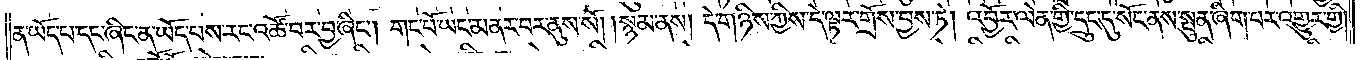ན་ཡོད་པ་དང་ཞིང་ན་ཡོད་པས་རང་འཚོ་བར་བྱ་ཞིང༌། གང་པོ་ཡང་མནར་བར་ནུས་སོ། །སྙམ་ནས། དེ་གཉིས་ཀྱིས་དེ་ལྟར་གྲོས་བྱས་ཏེ། འབྱོར་ལེན་གྱི་དྲུང་དུ་སོང་ནས་སྤུན་ཞིག་པར་འགྱུར་གྱི།
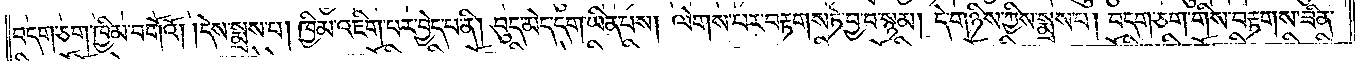བདག་ཅག་ཁྱིམ་བགོའོ། །དེས་སྨྲས་པ། ཁྱིམ་འཇིག་པར་བྱེད་པ་ནི། བུད་མེད་དག་ཡིན་པས། ལེགས་པར་བརྟགས་ཏེ་བྱ་བ་སྙམ། དེ་གཉིས་ཀྱིས་སྨྲས་པ། བདག་ཅག་གིས་བརྟགས་ཟིན་
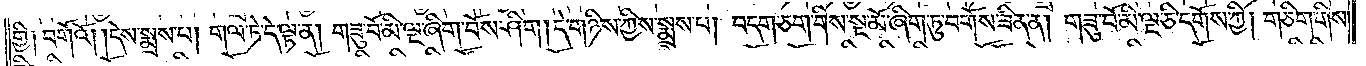གྱི༑ བགོའོ། །དེས་སྨྲས་པ། གལ་ཏེ་དེ་ལྟ་ན། གཟུ་བོ་མི་ལྔ་ཞིག་བོས་ཤིག །དེ་གཉིས་ཀྱིས་སྨྲས་པ། བདག་ཅག་གིས་སྔ་མོ་ཞིག་ཏུ་བགོས་ཟིན་ན། གཟུ་བོ་མི་ལྔ་ཅི་དགོས་ཀྱི། གཅིག་གིས་
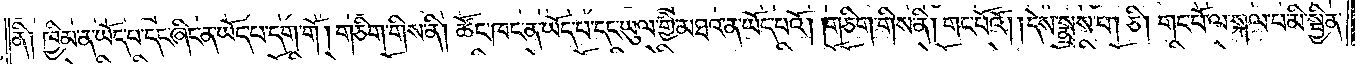ནི༑ ཁྱིམ་ན་ཡོད་པ་དང་ཞིང་ན་ཡོད་པ་དག་གོ །གཅིག་གིས་ནི། ཚོང་ཁང་ན་ཡོད་པ་དང་ཡུལ་གྱི་མཐའ་ན་ཡོད་པའོ། །གཅིག་གིས་ནི། གང་པོའོ། །དེས་སྨྲས་པ། ཅི། གང་པོ་ལ་སྐལ་པ་མི་སྦྱིན་
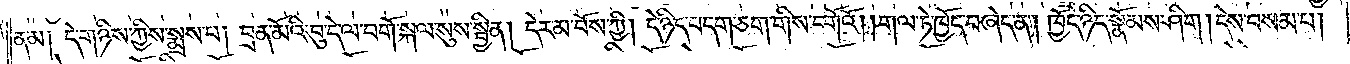ན་མ། དེ་གཉིས་ཀྱིས་སྨྲས་པ། བྲན་མོའི་བུ་དེ་ལ་བགོ་སྐལ་སུས་སྦྱིན། དེར་མ་བོས་ཀྱི། དེ་ཉིད་བདག་ཅག་གིས་བགོའོ། །གལ་ཏེ་ཁྱོད་བཞེད་ན། ཁྱོད་ཉིད་སྙོམས་ཤིག །དེས་བསམ་པ།
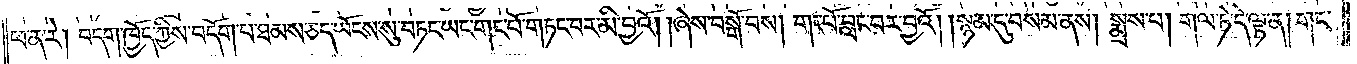ཕ་ན་རེ། བདག་ཁྱོད་ཀྱིས་བདོག་པ་ཐམས་ཅད་ཡོངས་སུ་བཏང་ཡང་གང་པོ་གཏང་བར་མི་བྱའོ། །ཞེས་བསྒོ་བས། གང་པོ་བླང་བར་བྱའོ། །སྙམ་དུ་བསམ་ནས། སྨྲས་པ། གལ་ཏེ་དེ་ལྟ་ན། གང་
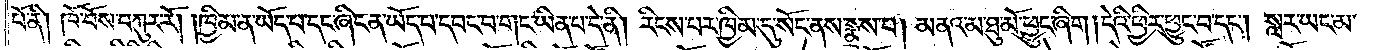པོ་ནི། ཁོ་བོས་བཀུར་རོ། །ཁྱིམ་ན་ཡོད་པ་དང་ཞིང་ན་ཡོད་པ་དབང་བ་གང་ཡིན་པ་དེ་ནི། རིངས་པར་ཁྱིམ་དུ་སོང་ནས་སྨྲས་པ། མནའ་མཐུ་མོ་ཕྱུང་ཞིག །དེའི་ཕྱིར་ཕྱུང་བ་དང༌། སླར་ཡང་མ་
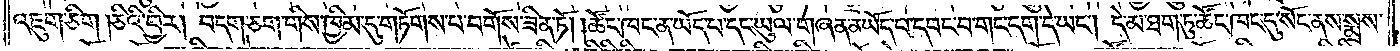འཇུག་ཅིག །ཅིའི་ཕྱིར། བདག་ཅག་གིས་ཁྱིམ་དུ་གཏོགས་པ་བགོས་ཟིན་ཏོ། །ཚོང་ཁང་ན་ཡོད་པ་དང་ཡུལ་གཞན་ན་ཡོད་པ་དབང་བ་གང་དག་དེ་ཡང༌། དེ་མ་ཐག་ཏུ་ཚོང་ཁང་དུ་སོང་ནས་སྨྲས་
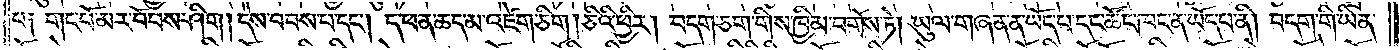པ༑ གང་པོ་མར་བོབས་ཤིག། དེས་བབས་པ་དང༌། ད་ཕན་ཆད་མ་འཛེག་ཅིག །ཅིའི་ཕྱིར། བདག་ཅག་གིས་ཁྱིམ་བགོས་ཏེ། ཡུལ་གཞན་ན་ཡོད་པ་དང་ཚོང་ཁང་ན་ཡོད་པ་ནི། བདག་གི་ཡིན་
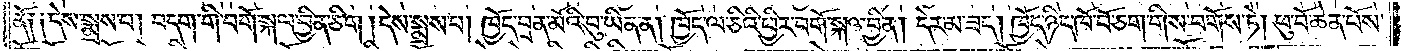ནོ༑ ༑དེས་སྨྲས་པ། བདག་གི་བགོ་སྐལ་བྱིན་ཅིག །དེས་སྨྲས་པ། ཁྱོད་བྲན་མོའི་བུ་ཡིན་ན། ཁྱོད་ལ་ཅིའི་ཕྱིར་བགོ་སྐལ་བྱིན། དེར་མ་ཟད། ཁྱོད་ཉིད་ཁོ་བོ་ཅག་གིས་བགོས་ཏེ། ཕུ་བོ་ཆེན་པོས་
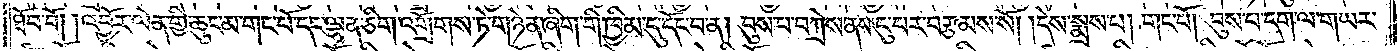ཐོབ་བོ། །འབྱོར་ལེན་གྱི་ཆུང་མ་གང་པོ་དང་ལྷན་ཅིག་འགྲོགས་ཏེ་གཉེན་ཞིག་གི་ཁྱིམ་དུ་དོང་བ་དང༌། བུས་པ་བཀྲེས་ནས་ངུ་བར་བརྩམས་སོ། །དེས་སྨྲས་པ། གང་པོ། བུས་པ་དག་ལ་གཡར་
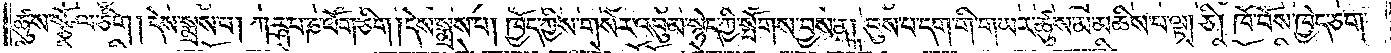ཚུས་སྩོལ་ཅིག །དེས་སྨྲས་པ། ཀཪྴ་པ་ན་ཕོག་ཅིག །དེས་སྨྲས་པ། ཁྱོད་ཀྱིས་གསེར་འབུམ་སྙེད་ཀྱི་སྤོགས་བྱས་ན། བུས་པ་དག་གིས་གཡར་ཚུས་མ་མཆིས་པ་ལྟ། ཅི། ཁོ་བོས་ཁྱེད་ཅག་
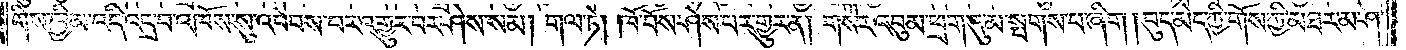གིས་ཁྱིམ་འདི་འདྲ་བ་འཁོས་སུ་འབེབས་པར་འགྱུར་བར་ཤེས་སམ། གལ་ཏེ། ཁོ་བོས་ཤེས་པར་གྱུར་ན། གསེར་འབུམ་ཕྲག་དུ་མ་སྤགས་པ་ཞིག །བུད་མེད་ཀྱི་གོས་ཀྱི་མཐར་མ་ཤ་
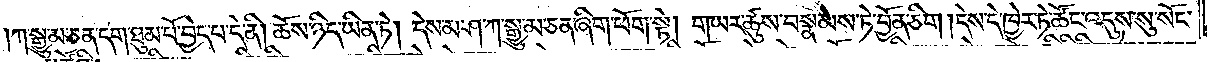ཀ་སྒྱུ་མ་ཅན་དག་ཐུམ་པོ་བྱེད་པ་དེ་ནི། ཆོས་ཉིད་ཡིན་ཏེ། དེས་མ་ཤ་ཀ་སྒྱུ་མ་ཅན་ཞིག་ཕོག་སྟེ། གཡར་ཚུས་བསྣམས་ཏེ་བྱོན་ཅིག །དེས་དེ་ཁྱེར་ཏེ་ཚོང་འདུས་སུ་སོང་
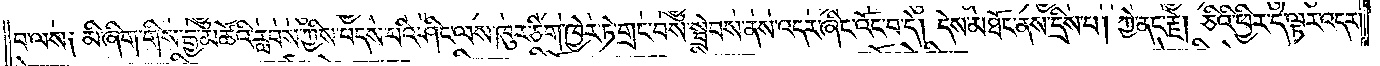བ་ལས༑ མི་ཞིག་གིས་རྒྱ་མཚོའི་རླབས་ཀྱིས་བདས་པའི་ཤིང་ལས་ཁུར་ཅིག་ཁྱེར་ཏེ་གྲང་བས་སྦྲེབས་ནས་འདར་ཞིང་འོང་བ་དེ། དེས་མཐོང་ནས་དྲིས་པ། ཀྱེ་ནང་རྗེ། ཅིའི་ཕྱིར་དེ་ལྟར་འདར།
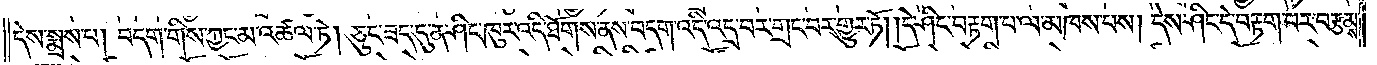དེས་སྨྲས་པ། བདག་གིས་ཀྱང་མ་འཚལ་ཏེ། ཅུང་ཟད་དུ་ན་ཤིང་ཁུར་འདི་ཐོགས་ནས་བདག་འདི་འདྲ་བར་གྲང་བར་གྱུར་ཏོ། །དེ་ཤིང་བརྟག་པ་ལ་མཁས་པས། དེས་ཤིང་དེ་བརྟག་པར་བརྩམས་
